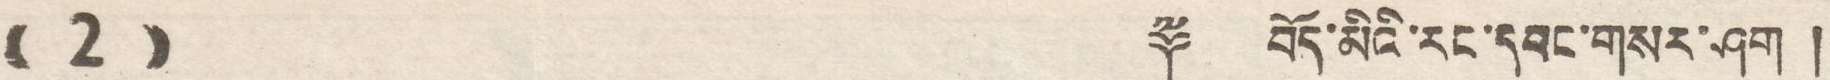((2)) ༈ བོད་མིའི་རང་དབང་གསར་ཤོག།།
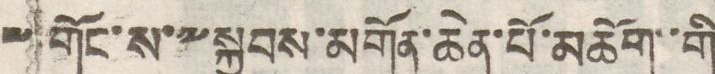༸གོང་ས་༸སྐྱབས་མགོན་ཆེན་པོ་མཆོག་་གི
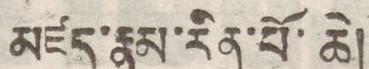མཛད་རྣམ་རིན་པོ་ཆེ།
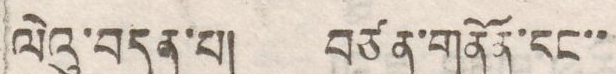ལེའུ་བདུན་པ། བཙན་གནོན་དང་་
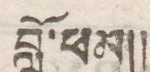བློ་ཕམ།།
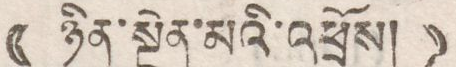(( ཉིན་སྔེན་མའི་འཕྲོས། ))
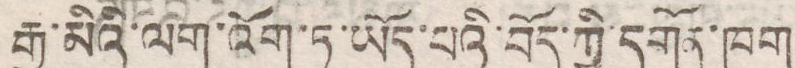རྒྱ་མིའི་ལག་འོག་ཏུ་ཡོད་པའི་བོད་ཀྱི དགོན་ཁག
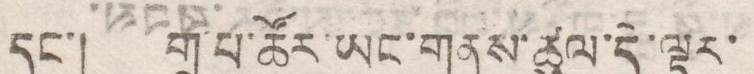དང་། གྲྭ་པ་ཚོར་ཡར་གནས་ཚུལ་དེ་ལྟར་
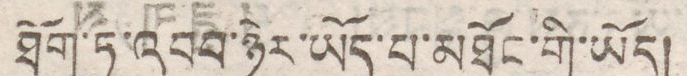ཐོག་རུ་འབབ་ཉེར་ཡོད་པ་མཐོང་གི་ཡོད།
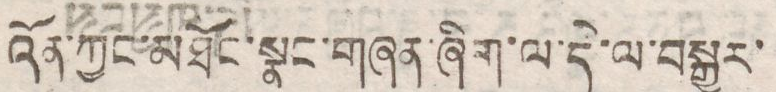འོན་ཀྱང་མཐོང་སྣང་གཞན་ཞིག་ལ་དེ་ལ་བསྒྱུར་
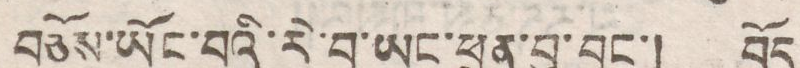བཅོས་ཡོང་བའི་རེ་བ་ཡང་ཕྲན་བུ་བྱུང་། བོད
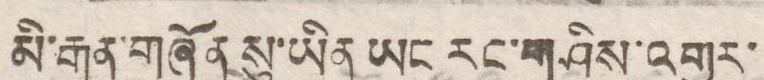མི་རྒན་གཞོན སུ་ཡིན ཡང རང་གཤིས་འགྱུར་
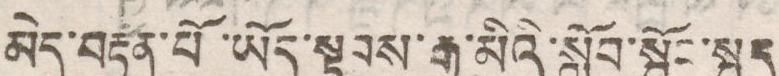མེད་བརྟན་པོ་ཡོད་སྟབས་རྒྱ་མིའི་སློབ་སྦྱོང་སྤྲད
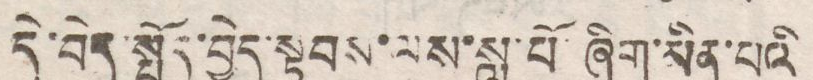དེ་བདེ་སྤྱོད་བྱེད་སྟབས་ལས་སླ་པོ་ཞིག་མིན་པའི་
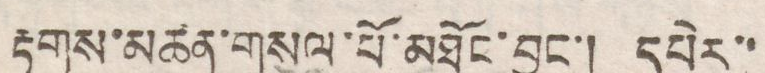རྟགས་མཚན་གསལ་པོ་མཐོང་བྱུང་། དཔེར་་
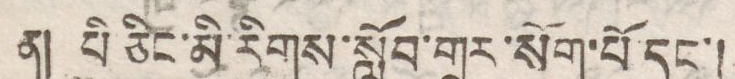ན། པི ཅིང་མི་རིགས་སློབ་གྲྭར་སོག་པོ་དང་།
